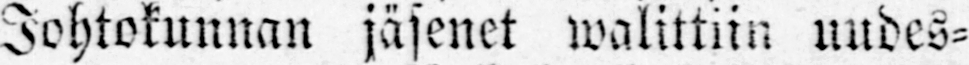Johtokunnan jäsenet walittin uudes-
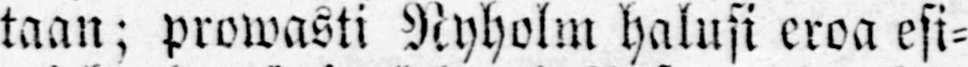taan; prowasti Nyholm halusi eroa esi-
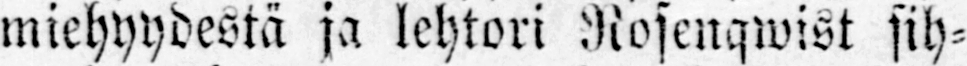miehyydestä ja lehtori Rosenqwist sih-
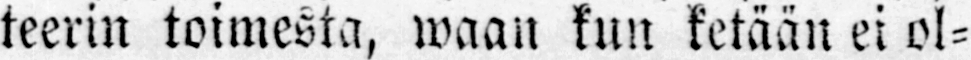teerin toimesta, waan kun ketään ei ol-
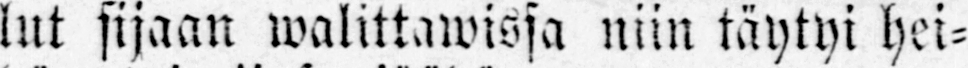lut sijaan walittawissa niin täytyi hei-
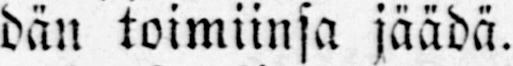dän toimiinsa jäädä.
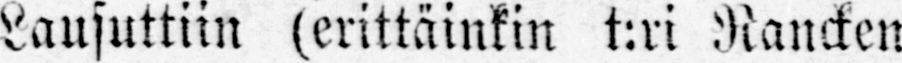Lausuttiin (erittäinkin t:ri Rancken
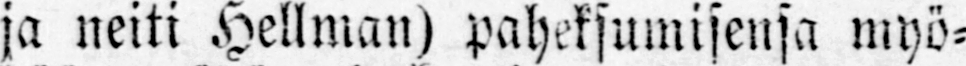ja neiti Hellman) paheksumisensa myö-
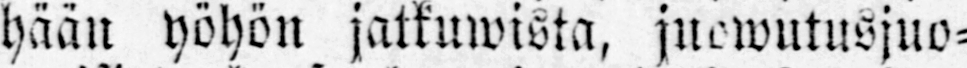hään yöhön jatkuwista, juowutusjuo-
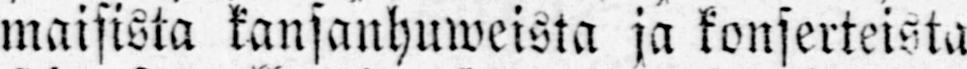maisista kansanhuweista ja konserteista
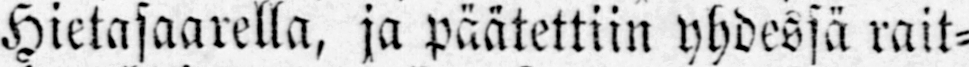Hietasaarella, ja päätettiin yhdessä rait-
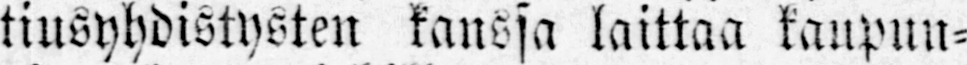tiusyhdistysten kanssa laittaa kaupun-
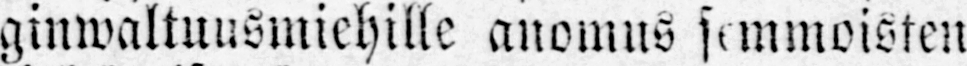ginwaltuusmiehille anomus semmoisten
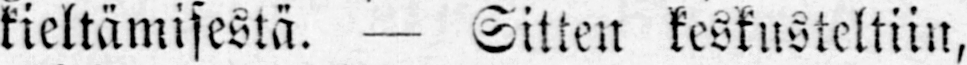kieltämisestä. — Sitten keskusteltiin,
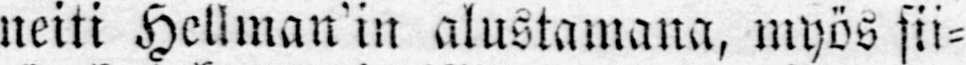neiti Hellman'in alustamana, myös sii-
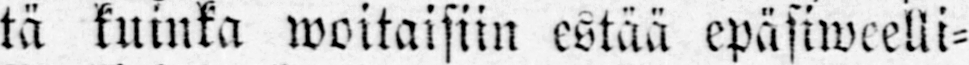tä kuinka woitaisiin estää epäsiweelli-
